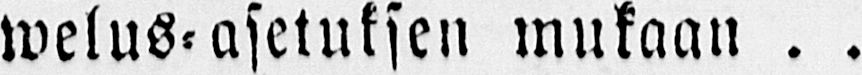welus-asetuksen mukaan . .
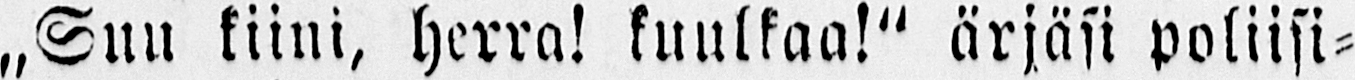„Suu kiini, herra! kuulkaa!" ärjäsi poliisi-
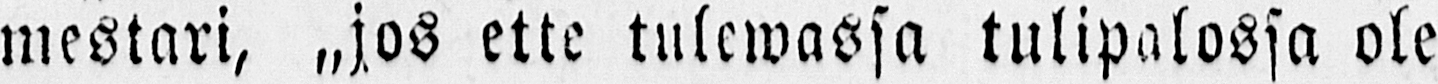mestari, „jos ette tulewassa tulipalossa ole
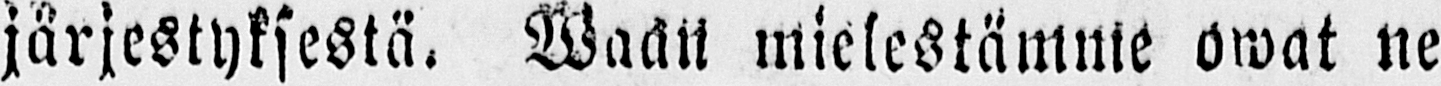järjestyksestä. Waan mielestämme owat ne
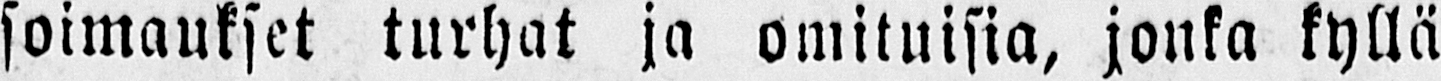soimaukset turhat ja omituisia, jonka kyllä
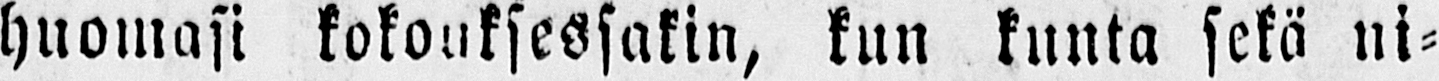huomasi kokouksessakin, kun kunta sekä ni-
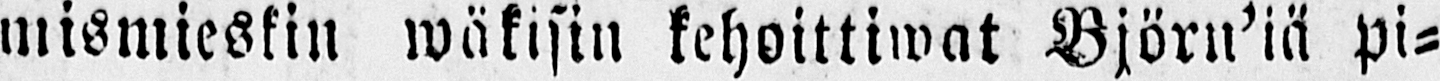mismieskin wäkisin kehoittiwat Björn'iä pi-
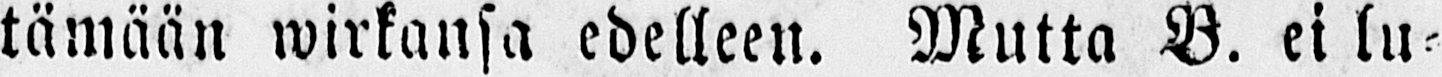tämään wirkansa edelleen. Mutta B. ei lu-
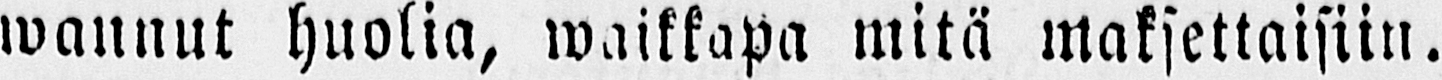wannut huolia, waikkapa mitä maksettaisiin.
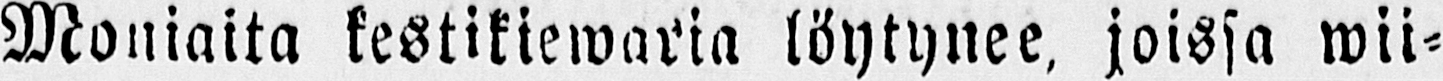Moniaita kestikiewaria löytynee, joissa wii-
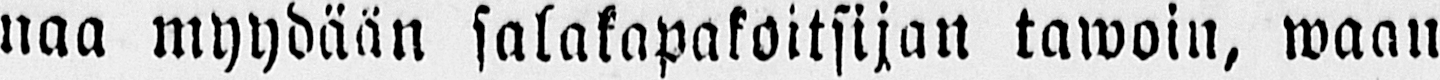naa myydään salakapakoitsijan Lawoin, waan
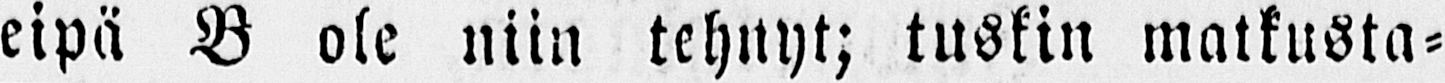eipä B ole niin tehnyt; tuskin matkusta-
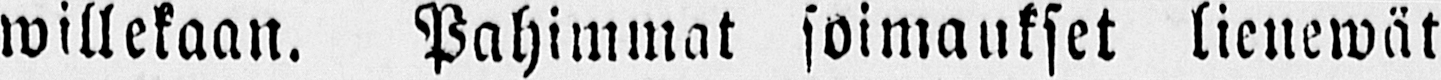millekaan. Pahimmat soimaukset lienemät
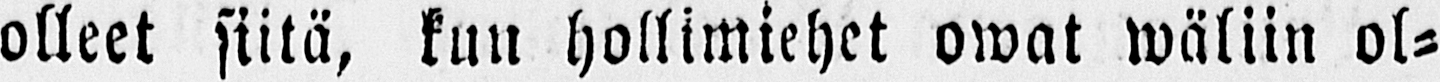olleet siitä, kun hollimiehet owat wäliin ol-
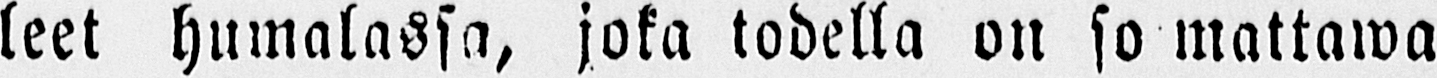leet humalassa, joka todella on so mattawa
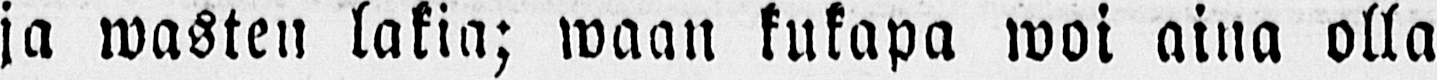ja wasten lakia; waan kukapa woi aina olla
